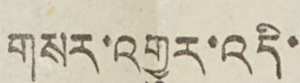གསར་འགྱུར་འདི་
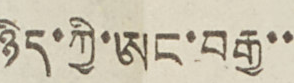ཉིད་ཀྱི་ཨང་བརྒྱ་་
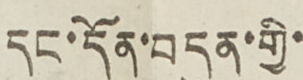དང་དོན་བདུན་གྱི་
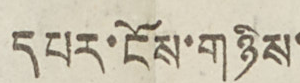དཔར་ངོས་གཉིས་
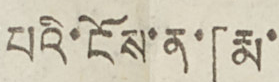པའི་ངོས་ན་「རྨ་
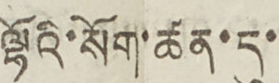ལྷོའི་སོག་ཚན་དུ་
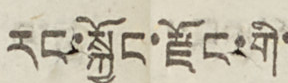རང་སྐྱོང་རྫོང་གི་
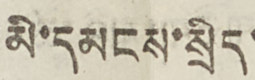མི་དམངས་སྲིད་
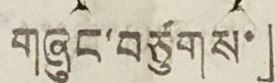གཞུང་བཙུགས་」
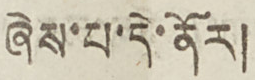ཞེས་པ་དེ་ནོར།
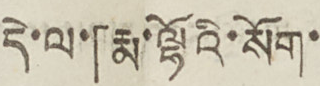དེ་ལ་「རྨ་ལྷོའི་སོག་
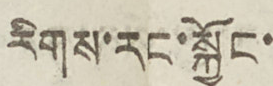རིགས་རང་སྐྱོང་
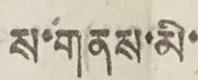ས་གནས་མི་
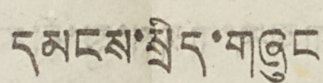དམངས་སྲིད་གཞུང་
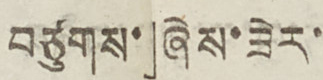བཙུགས་」ཞེས་ཟེར་་
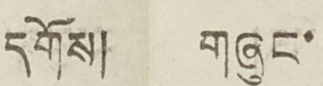དགོས། གཞུང་་
